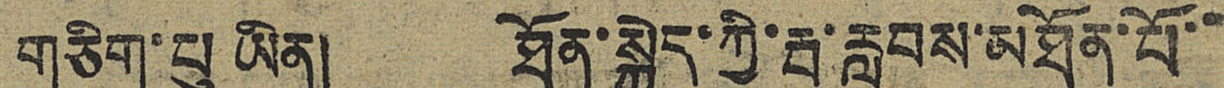གཅིག་པུ ཡིན། ཐོན་སྐྱེད་ཀྱི་རྦ་རླབས་མཐོན་པོ་་
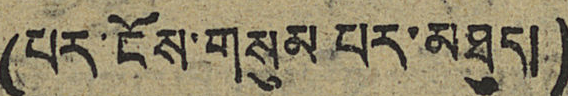(པར་ངོས་གསུམ པར་མཐུད།)
